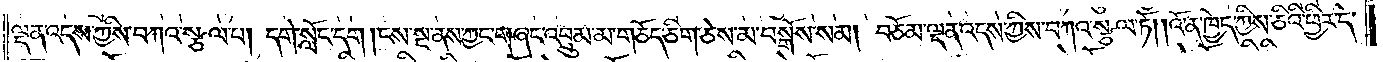ལྡན་འདས་ཀྱིས་བཀའ་སྩལ་པ། དགེ་སློང་དག །ངས་སྔ་ནས་ཀྱང་གཞང་འབྲུམ་མ་གཅོད་ཅིག་ཅེས་མ་བསྒོས་སམ། བཅོམ་ལྡན་འདས་ཀྱིས་བཀའ་སྩལ་ཏོ། །འོ་ན་ཁྱེད་ཀྱིས་ཅིའི་ཕྱིར་དེ་
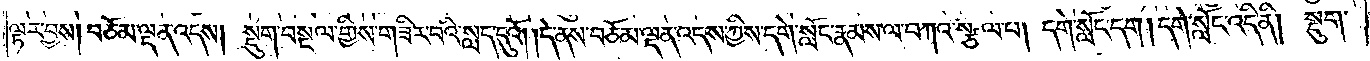ལྟར་བྱས། བཅོམ་ལྡན་འདས། སྡུག་བསྔལ་གྱིས་གཟིར་བའི་སླད་དུའོ། །དེ་ནས་བཅོམ་ལྡན་འདས་ཀྱིས་དགེ་སློང་རྣམས་ལ་བཀའ་སྩལ་པ། དགེ་སློང་དག །དགེ་སློང་འདི་ནི། སྡུག་
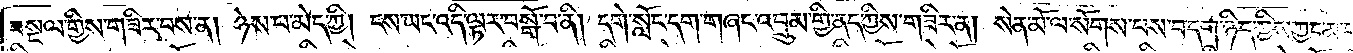བསྔལ་གྱིས་གཟིར་བས་ན། ཉེས་པ་མེད་ཀྱི། ངས་ཡང་འདི་ལྟར་བསྒོ་བ་ནི། དགེ་སློང་དག་གཞང་འབྲུམ་གྱི་ནད་ཀྱིས་གཟིར་ན། སེན་མོ་ལ་སོགས་པས་བདག་ཉིད་ཀྱིས་ཀྱང་མ་གཅོད་
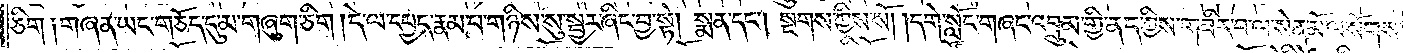ཅིག་༑གཞན་ཡང་གཅོད་དུ་མ་གཞུག་ཅིག །དེ་ལ་དཔྱད་རྣམ་པ་གཉིས་སུ་སྦྱར་ཞིང་བྱ་སྟེ། སྨན་དང༌། སྔགས་ཀྱིས་སོ། །དགེ་སློང་གཞང་འབྲུམ་གྱི་ནད་ཀྱིས་གཟིར་བ་ལ་སེན་མོ་ལ་སོགས་
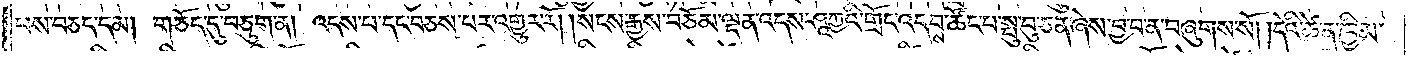པས་བཅད་དམ། གཅོད་དུ་བཅུག་ན། འདས་པ་དང་བཅས་པར་འགྱུར་རོ། །སངས་རྒྱས་བཅོམ་ལྡན་འདས་ཤཱཀྱའི་གྲོང་འདབས་ཚོང་པ་སྤུ་བུ་ཅན་ཞེས་བྱ་བ་ན་བཞུགས་སོ། །དེའི་ཚེ་ན་ཁྱིམ་
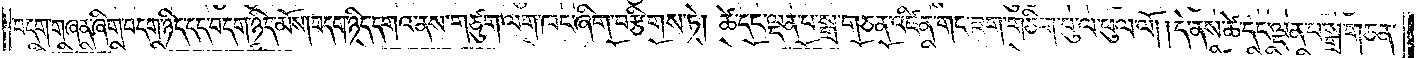བདག་གཞན་ཞིག་བདག་ཉིད་དད་བདག་ཉིད་མོས། བདག་ཉིད་དགའ་ནས་གཙུག་ལག་ཁང་ཞིག་བརྩིགས་ཏེ། ཚེ་དང་ལྡན་པ་སྒྲ་གཅན་འཛིན་གང་ཟག་གཅིག་པུ་ལ་ཕུལ་ལོ། །དེ་ནས་ཚེ་དང་ལྡན་པ་སྒྲ་གཅན་
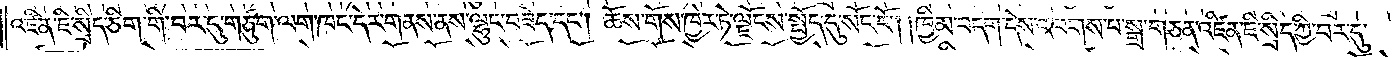འཛིན་ཇི་སྲིད་ཅིག་གི་བར་དུ་གཙུག་ལག་ཁང་དེར་གནས་ནས་ལྷུང་བཟེད་དང༌། ཆོས་གོས་ཁྱེར་ཏེ་ལྗོངས་སྤྱོད་དུ་སོང་ངོ༌། །ཁྱིམ་བདག་དེས་འཕགས་པ་སྒྲ་གཅན་འཛིན་ཇི་སྲིད་ཀྱི་བར་དུ་
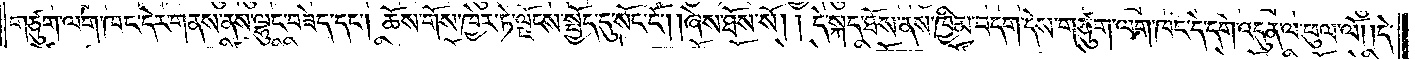གཙུག་ལག་ཁང་དེར་གནས་ནས་ལྷུང་བཟེད་དང༌། ཆོས་གོས་ཁྱེར་ཏེ་ལྗོངས་སྤྱོད་དུ་སོང་ངོ༌། །ཞེས་ཐོས་སོ། །དེ་སྐད་ཐོས་ནས་ཁྱིམ་བདག་དེས་གཙུག་ལག་ཁང་དེ་དགེ་འདུན་ལ་ཕུལ་ལོ། །དེ་
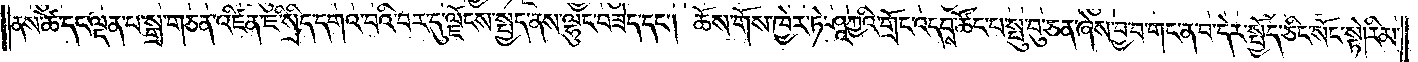ནས་ཚེ་དང་ལྡན་པ་སྒྲ་གཅན་འཛིན་ཇི་སྲིད་དགའ་བའི་བར་དུ་ལྗོངས་སྤྱོད་ནས་ལྷུང་བཟེད་དང༌། ཆོས་གོས་ཁྱེར་ཏེ་ཤཱཀྱའི་གྲོང་འདབས་ཚོང་པ་སྤུ་བུ་ཅན་ཞེས་བྱ་བ་གང་ན་བ་དེར་སྤྱོད་ཅིང་སོང་སྟེ། མི་
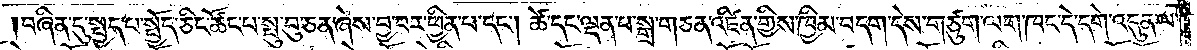བཞིན་དུ་སྤྱད་པ་སྤྱོད་ཅིང་ཚོང་པ་སྤུ་བུ་ཅན་ཞེས་བྱ་བར་ཕྱིན་པ་དང༌། ཚེ་དང་ལྡན་པ་སྒྲ་གཅན་འཛིན་གྱིས་ཁྱིམ་བདག་དེས་གཙུག་ལག་ཁང་དེ་དགེ་འདུན་ལ་
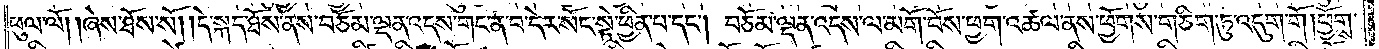ཕུལ་ལོ། །ཞེས་ཐོས་སོ། །དེ་སྐད་ཐོས་ནས་བཅོམ་ལྡན་འདས་གང་ན་བ་དེར་སོང་སྟེ་ཕྱིན་པ་དང༌། བཅོམ་ལྡན་འདས་ལ་མགོ་བོས་ཕྱག་འཚལ་ནས་ཕྱོགས་གཅིག་ཏུ་འདུག་གོ །ཕྱོགས་
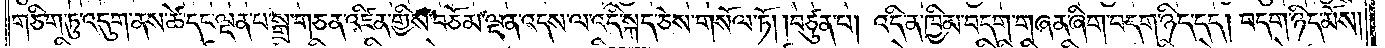གཅིག་ཏུ་འདུག་ནས་ཚེ་དང་ལྡན་པ་སྒྲ་གཅན་འཛིན་གྱིས་བཅོམ་ལྡན་འདས་ལ་འདི་སྐད་ཅེས་གསོལ་ཏོ། །བཙུན་པ། འདི་ན་ཁྱིམ་བདག་གཞན་ཞིག་བདག་ཉིད་དད། བདག་ཉིད་མོས།
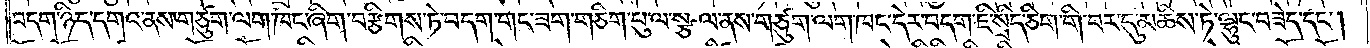བདག་ཉིད་དགའ་ནས་གཙུག་ལག་ཁང་ཞིག་བརྩིགས་ཏེ་བདག་གང་ཟག་གཅིག་པུ་ལ་སྩལ་ནས་གཙུག་ལག་ཁང་དེར་བདག་ཇི་སྲིད་ཅིག་གི་བར་དུ་མཆིས་ཏེ་ལྷུང་བཟེད་དང༌།
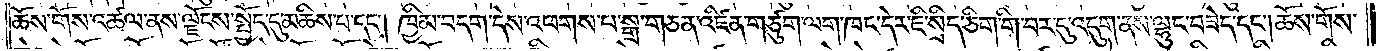ཆོས་གོས་འཚལ་ནས་ལྗོངས་སྤྱོད་དུ་མཆིས་པ་དང༌། ཁྱིམ་བདག་དེས་འཕགས་པ་སྒྲ་གཅན་འཛིན་གཙུག་ལག་ཁང་དེར་ཇི་སྲིད་ཅིག་གི་བར་དུ་འདུག་ནས་ལྷུང་བཟེད་དང༌། ཆོས་གོས་
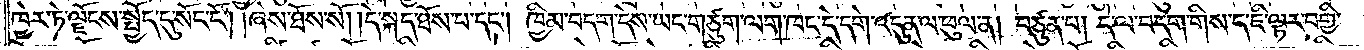ཁྱེར་ཏེ་ལྗོངས་སྤྱོད་དུ་སོང་ངོ༌། །ཞེས་ཐོས་སོ། །དེ་སྐད་ཐོས་པ་དང༌། ཁྱིམ་བདག་དེས་ཡང་གཙུག་ལག་ཁང་དེ་དེ་དགེ་འདུན་ལ་ཕུལ་ན། བཙུན་པ། དེ་ལ་བདག་གིས་ད་ཇི་ལྟར་བགྱི་
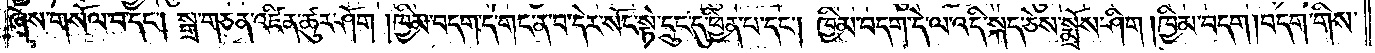ཞེས་གསོལ་བ་དང༌། སྒྲ་གཅན་འཛིན་ཚུར་ཤོག །ཁྱིམ་བདག་དེ་གང་ན་བ་དེར་སོང་སྟེ་དྲུང་དུ་ཕྱིན་པ་དང༌། ཁྱིམ་བདག་དེ་ལ་འདི་སྐད་ཅེས་སྨྲོས་ཤིག །ཁྱིམ་བདག །བདག་གིས་
